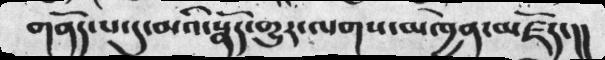གནོད་པ་དུ་མའི་སྣོད་གྱུར་ལགས་མཁྱེན་མཛོད་།།
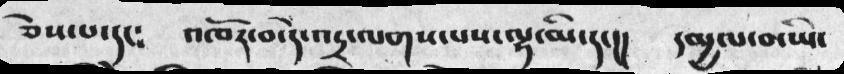ཅེས་པ་དང༴  འཁོར་བ་དེ་འདྲ་ལགས་པས་ལྷ་མི་དང་།།  དམྱལ་བ་ཡི་
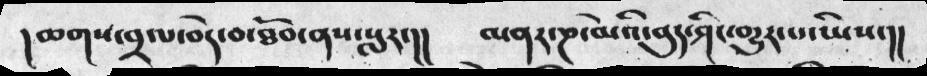།ཆགས་བྲལ་བདེ་བ་ཐོབ་ནས་སླར་།།  མནར་ཎ་མེའི་བུད་ཤིང་གྱུར་པ་ཡིས་།།
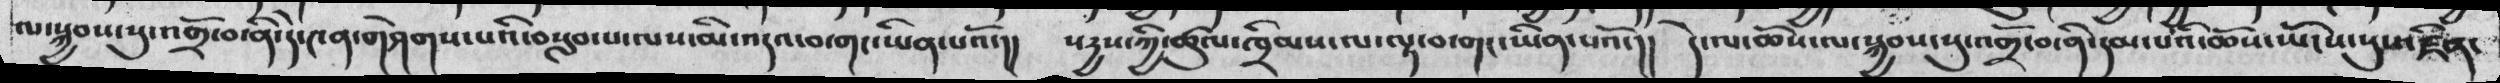ལ་སྐྱབས་སུ་འགྲོ་བ་ནི་དེ་༤ན་གཤེགས་པའི་བསླབ་པ་ལས་མི་འདའ་བ་གང་ཡིན་པའོ་།།  སདྱས་ཀྱི་ཚུལ་ཁྲིམས་ལ་ལྟ་བ་གང་ཡིན་པའོ་།།  དེ་ལ་ཆོས་ལ་སྐྱབས་སུ་འགྲོ་བ་ནི་དམ་པའི་ཆོས་ཡོངས་སུ་འཛིན་
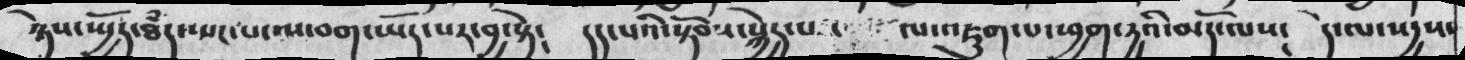ཉེས་སྤྱོད་ཐཾད་ཡང་པ་ལ་བག་ཡོད་པར་བྱ་སྟེ༴  དད་པའི་སྟོབས་སྐྱེད་པ་  ལ་འཇུག་པ་ཕྱག་དྱའི་ནདོ་ལས༴  དེ་ལ་སདྱས་
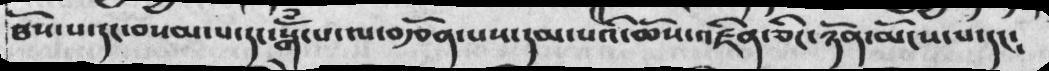ཐོས་པ་དང་བསམ་པ་དང་སྒོཾ་པ་ལ་བརྩོན་པས་དམ་པའི་ཆོས་འཛིན་ཅིང་ཉོན་མོངས་པ་དང༴
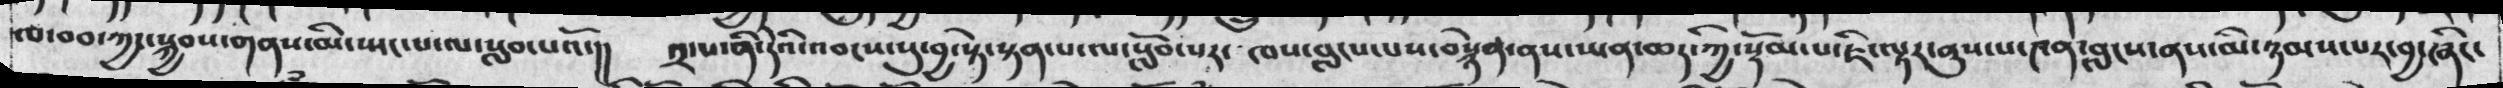ལ་བབ་ཀྱང་སྐྱབས་གནས་མི་སྤང་པ་ལ་སླབ་པའོ་།།  ༢་པ་ནི་དེའི་འབངས་སུ་བྱ་སྟེ་སྟན་པ་ལ་སློབ་པར་  ཁས་བླངས་པས་བསྙེན་ནས་ཡན་ཆད་ཀྱི་སྡོམ་པ་ཇི་ལྟར་ནུས་པ་༤ན་བླངས་ནས་མི་ཉམས་པར་བྱ་ཞིང་
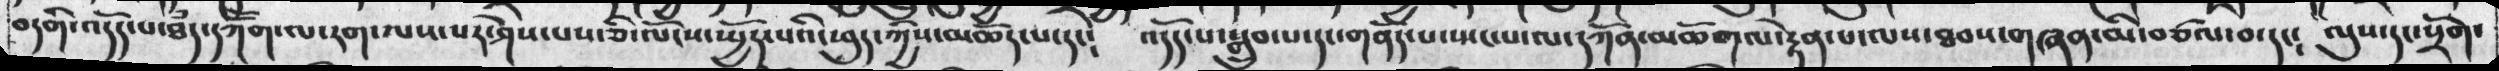བདགི་འདོད་པ་ཐཾད་དཀོོག་ལ་རག་ལས་པར་ཤེས་པས་ཅི་ལོངས་སྤྱོད་པའི་ཕུད་ཀྱིས་མཆོད་པ་དང༴  འདོད་པ་སྒྲུབ་པ་དང་གནོད་པ་སྤང་པ་ལ་དཀོན་མཆོགལ་རྟེན་པ་ལས་ཐབས་གཞན་མི་བཙལ་བ་དང༴  ལུས་དང་སྲོག་
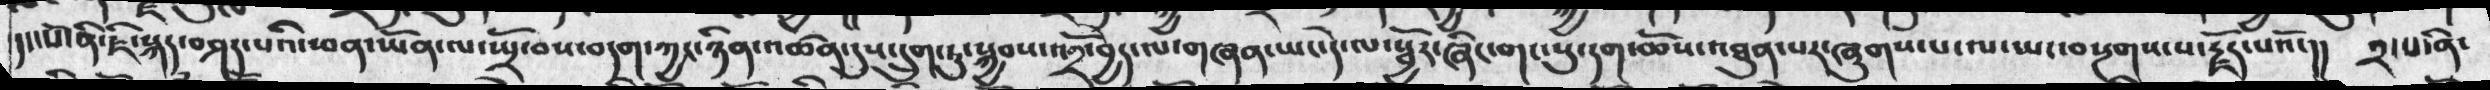དང་པོ་ནི་ཇི་སྐད་བཤད་པའི་ཕན་ཡོན་ལ་སྤྲོ་བས་བདག་ཀྱང་ཉིན་འཚན་དུས་དདྲུག་ཏུ་སྐྱབས་འགྲོ་བྱེད་ལ་གཞན་ཡང་དེ་ལ་སྦྱོར་ཞིང་གང་སུ་དག་ཆོས་འཐུན་པར་ཞུགས་པ་ལ་ཡང་བསྔགས་པ་རྗོད་པའོ་།།  ༢་པ་ནི་
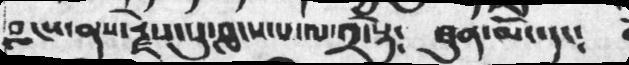བླངས་ནས་རྗེས་སུ་བླངས་པ་ལ་༢་སྟེ༴  ཐུན་མོང་དང༴
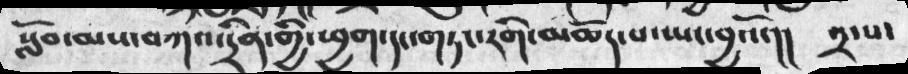སློབ་མས་བཀའ་དྲིན་གྱི་ཕྱག་དང་གཏང་རིག་མཆོད་པ་ཡང་བྱའོ་།།  ༢་པ་
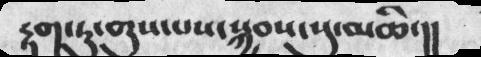རྟག་ཏུ་གུས་པས་སྐྱབས་སུ་མཆི་།།
